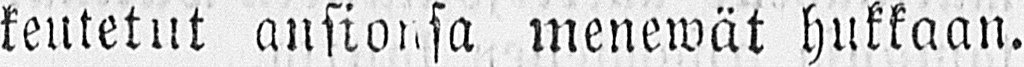keutetut ansionsa menewät hukkaan.
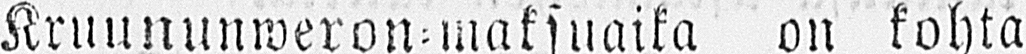Kruununweron-maksuaika on kohta
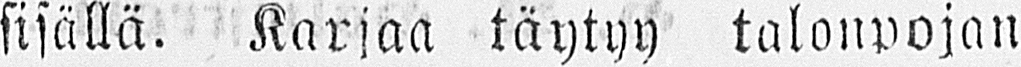sisällä. Karjaa täytyy talonpojan
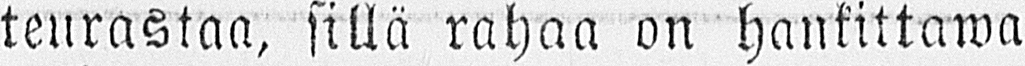teurastaa, sillä rahaa on hankittawa
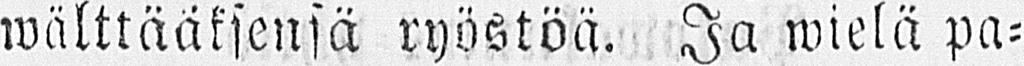wälttääksensä ryöstöä. Ja wielä pa-
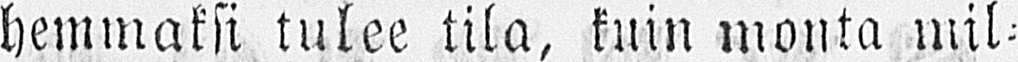hemmaksi tulee tila, kuin monta mil-
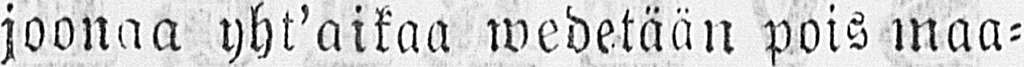joonaa yht'aikaa wedetään pois maa-
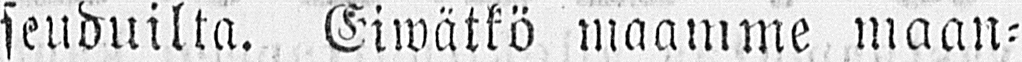seuduilta. Eiwätkö maamme maan-
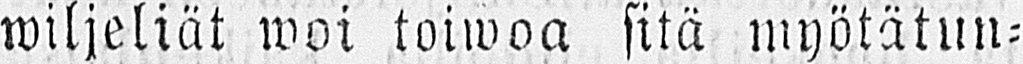wiljeliät woi toiwoa sitä myötätun-
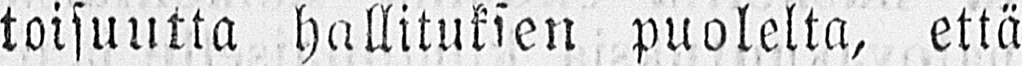toisuutta hallitukien puolelta, että
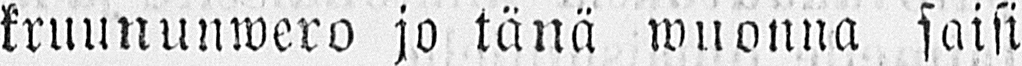kruununwero jo tänä wuonna saisi
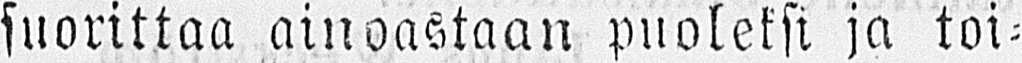suorittaa ainoastaan puoleksi ja toi-
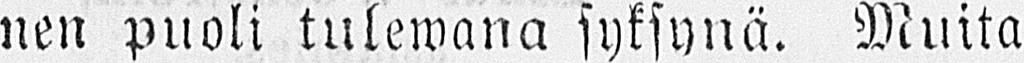nen puoli tulewana syksynä. Muita
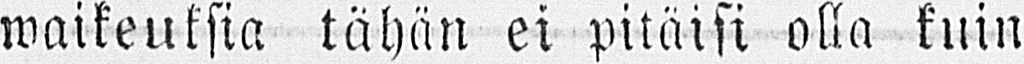waikeuksia tähän ei pitäisi olla kuin
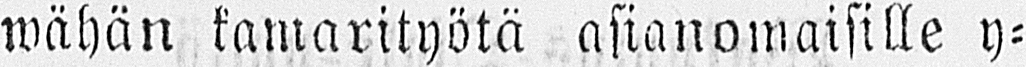wähän kamarityötä asianomaisille y-
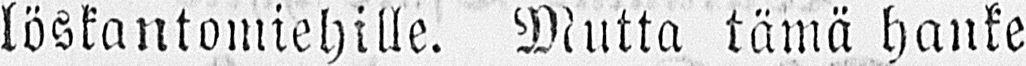löskantomiehille. Mutta tämä hanke
